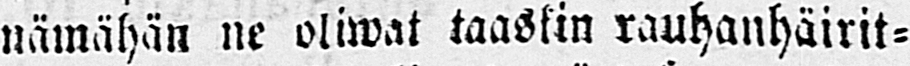nämähän ne oliwat laastin rauhanhäirit-
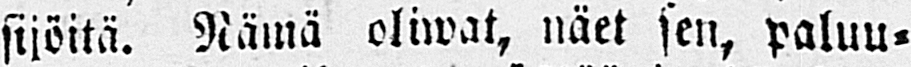sijöitä. Nämä oliwat, näet sen, paluu-
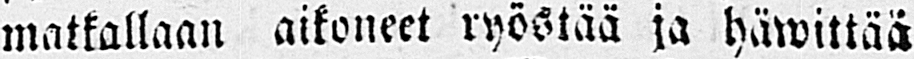matkallaan aikoneet ryöstää ja häwittäa
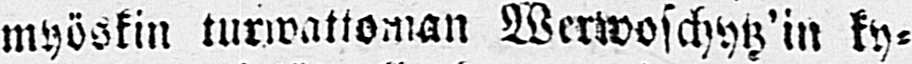myöskin turwattoman Werwoschystz’in ky-
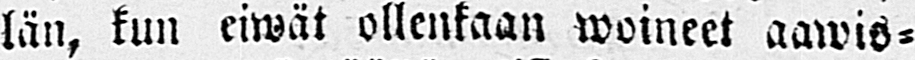län, kun eiwät ollenkaan woineet aawsis-
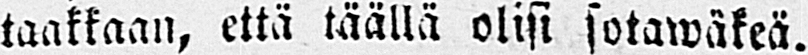taakkaan, että täällä olisi sotawäkeä.
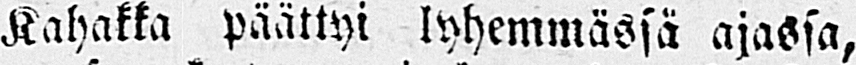Kahakka päättyi lyhemmässä ajassa,
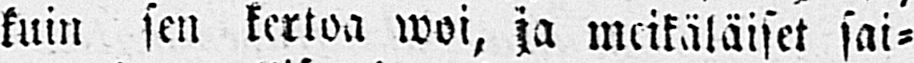kuin sen kertoa woi, ja meikäläiset sai-
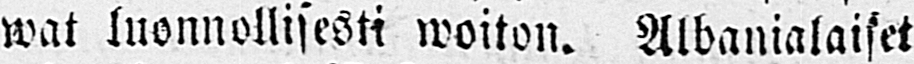dat luonnollisesti woiton. Albanialaiset
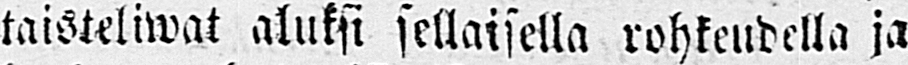taisteliwat aluksi sellaisella rohkeudella ja
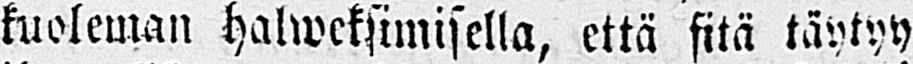kuoleman halweksimisella, että sitä täytyy
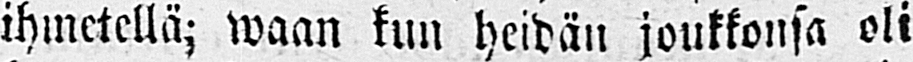ihmetellä; waan kun heidän joukkonsa oli
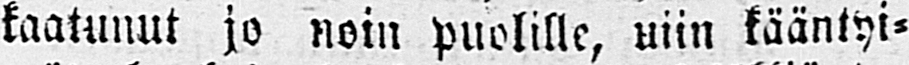kaatunut jo noin puolille, uiin kääntyi-
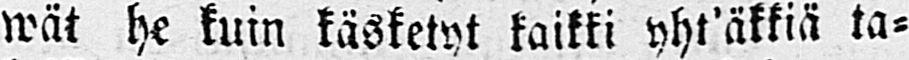wät he kuin käsketyt kaikki yht’äkkiä ta-
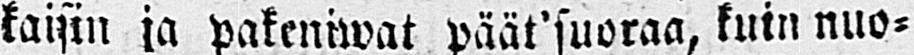kaisin ja pakeniwat päät’suoraa, kuin nuo-
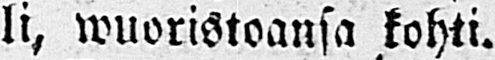li, wuoristoansa kohti.
